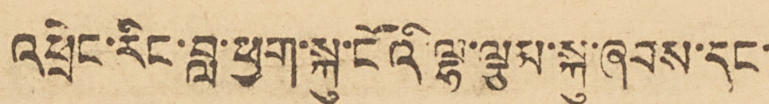འཕྲིན་རིང་བླ་ཕྱག་སྐུ་ངོའི་ལྷ་ལྕམ་སྐུ་ཞབས་དང་།
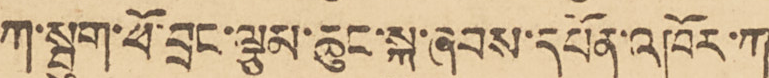ཀ་སྦུག་ཕོ་བྲང་ལྕམ་ཆུང་སྐུ་ཞབས་དཔོན་འཁོར་ཀ་
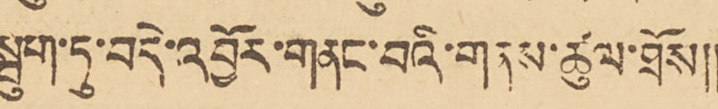སྦུག་ཏུ་བདེ་འབྱོར་གནང་བའི་གནས་ཚུལ་ཐོས༎
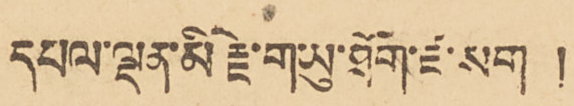དཔལ་ལྡན་མི་རྗེ་གཡུ་ཐོག་ཛ་སག །
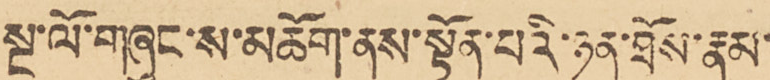སྔ་ལོ་གཞུང་ས་མཆོག་ནས་སྟོན་པའི་ཉན་ཐོས་རྣམ་
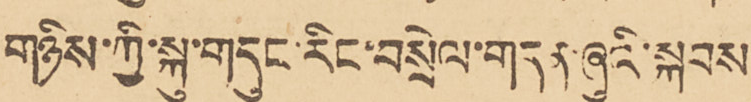གཉིས་ཀྱི་སྐུ་གདུང་རིང་བསྲེལ་གདན་ཞུའི་སྐབས་
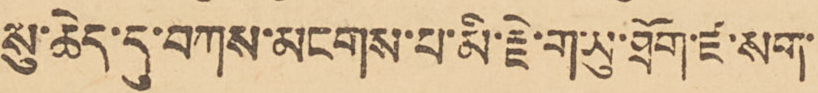སུ་ཆེད་དུ་བཀས་མངགས་པ་མི་རྗེ་གཡུ་ཐོག་ཛ་སག་
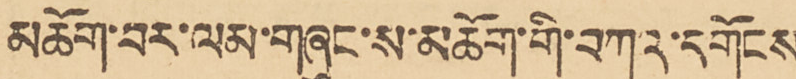མཆོག་བར་ལམ་གཞུང་ས་མཆོག་གི་བཀའ་དགོངས་
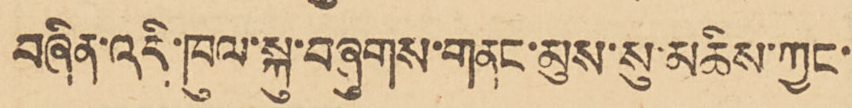བཞིན་འདི་ཁུལ་སྐུ་བཞུགས་གནང་མུས་སུ་མཆིས་ཀྱང་
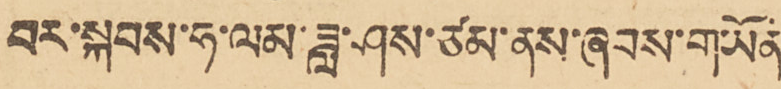བར་སྐབས་ཧ་ལམ་ཟླ་ཤས་ཙམ་ནས་ཞབས་གཡོན་
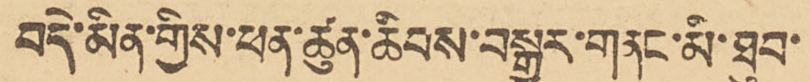བདེ་མིན་གྱིས་ཕན་ཚུལ་ཆིབས་བསྒྱུར་གནང་མི་ཐུབ་
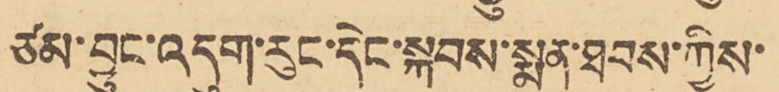ཙམ་བྱུང་འདུག་རུང་དེང་སྐབས་སྨན་ཐབས་ཀྱིས་
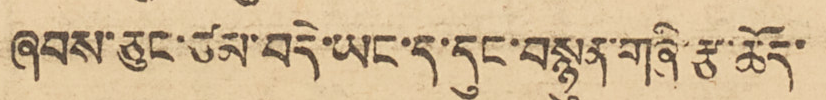ཞབས་ཅུང་ཙམ་བདེ་ཡང་ད་དུང་བསྙུན་གཞི་རྩ་ཆོད་
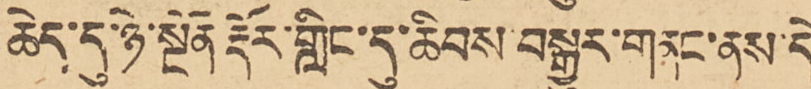ཆེད་དུ་ཉེ་སྔོན རྡོར་གླིང་དུ་ཆིབས་བསྒྱུར་གནང་ནས་དེ་
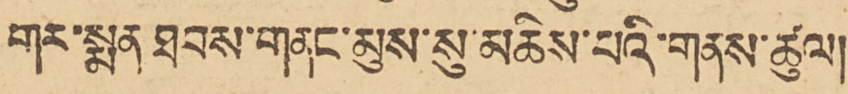གར་སྨན་ཐབས་གནང་མུས་སུ་མཆིས་པའི་གནས་ཚུལ།
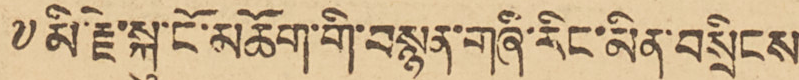༸མི་རྗེ་སྐུ་ངོ་མཆོག་གི་བསྙུན་གཞི་རིང་མིན་བསྲིངས་
